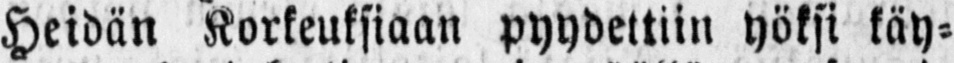Heidän Korkeuksiaan pyydettiin yöksi käy-
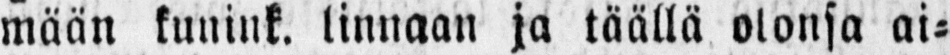mään kunink. linnaan ja täällä olonsa ai-
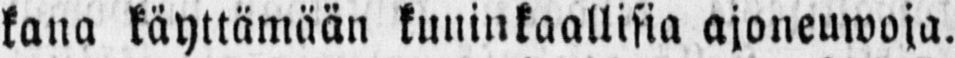kana käyttämään kuninkaallisia ajoneuwoja.
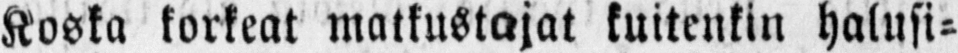Koska korkeat matkustajat kuitenkin halusi-
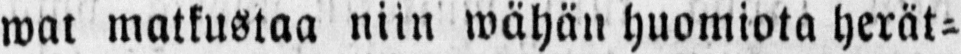wat matkustaa niin wähän huomiota herät-
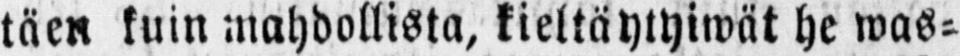täen kuin mahdollista, kieltäytyiwät he was-
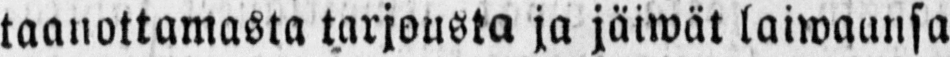taanottamasta tarjousta ja jäiwät laiwaansa
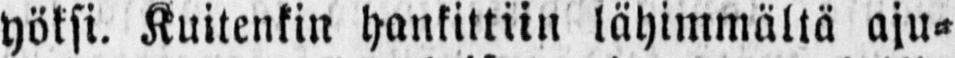yöksi. Kuitenkin hankittiin lähimmältä aju-
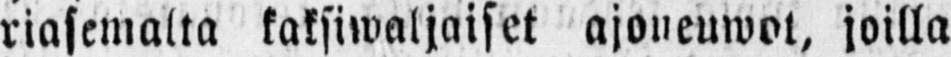riasemalta kaksiwaljaiset ajoneuwot, joilla
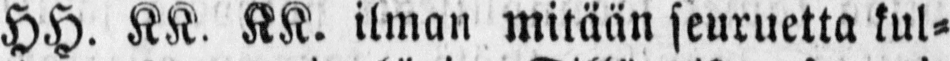HH. KK. KK. ilman mitään seuruetta kul-
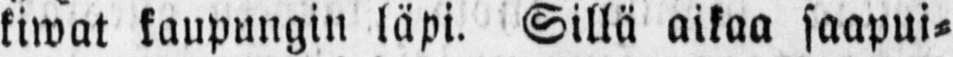kiwat kaupungin läpi. Sillä aikaa saapui-
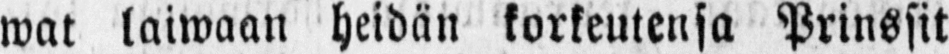wat laiwaan heidän korkeutensa Prinssit
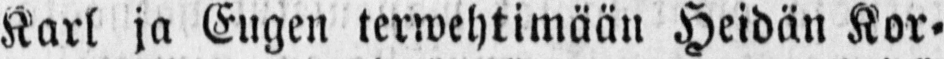Karl ja Eugen terwehtimään Heidän Kor-
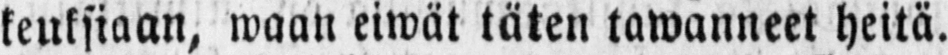keuksiaan, waan eiwät täten tawanneet heitä.
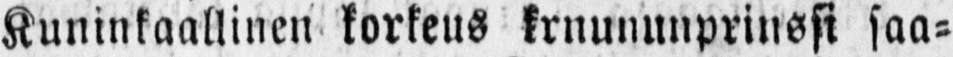Kuninkaallinen korkeus krnununprinssi saa-
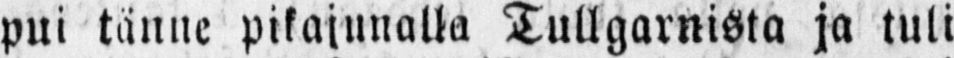pui tänne pikajunalla Tullgarnista ja tuli
